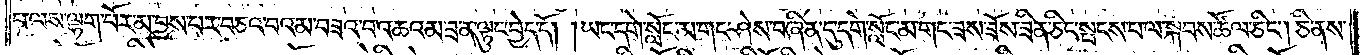པ་ལས་ལྷག་པོར་མ་བྱས་པར་བཅའ་བའམ་བཟའ་བ་འཆའམ་ཟ་ན་ལྟུང་བྱེད་དོ། །ཡང་དགེ་སློང་མ་གང་ཤེས་བཞིན་དུ་དགེ་སློང་མ་གང་ཟས་ཟོས་ཟིན་ཅིང་སྤངས་པ་ལ་སྐབས་ཚོལ་ཅིང༌། ཅི་ནས་
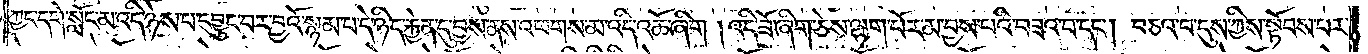ཀྱང་དགེ་སློང་མ་འདི་ཉེས་པ་དབྱུང་བར་བྱའོ་སྙམ་པ་དེ་ཉིད་རྐྱེན་དུ་བྱས་ནས་འཕགས་མ་འདི་འཆོ་ཞིག །འདི་ཟོ་ཞིག་ཅེས་ལྷག་པོར་མ་བྱས་པའི་བཟའ་བ་དང༌། བཅའ་བ་དུས་ཀྱིས་སྟོབས་པར་
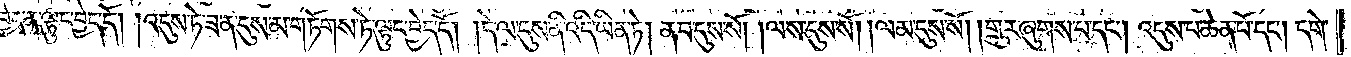བྱེད་ན་ལྟུང་བྱེད་དོ། །འདུས་ཏེ་ཟ་ན་དུས་མ་གཏོགས་ཏེ་ལྟུང་བྱེད་དོ། །དེ་ལ་དུས་ནི་འདི་ཡིན་ཏེ། ན་བ་དུས་སོ། །ལས་དུས་སོ། །ལམ་དུས་སོ། །གྲུར་ཞུགས་པ་དང༌། འདུས་པ་ཆེན་པོ་དང༌། དགེ་
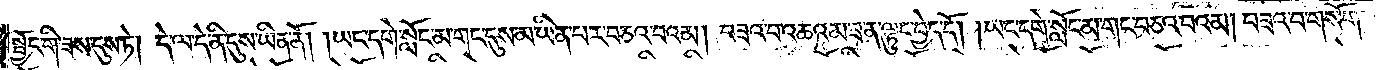སྦྱོང་གི་ཟས་དུས་ཏེ། དེ་ལ་དེ་ནི་དུས་ཡིན་ནོ། །ཡང་དགེ་སློང་མ་གང་དུས་མ་ཡིན་པར་བཅའ་བའམ། བཟའ་བ་འཆའམ་ཟ་ན་ལྟུང་བྱེད་དོ། །ཡང་དགེ་སློང་མ་གང་བཅའ་བའམ། བཟའ་བ་གསོག་
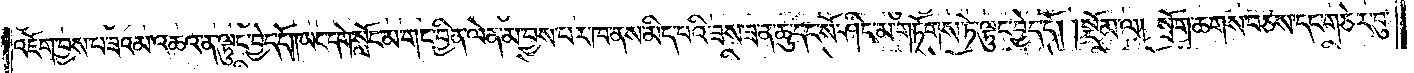འཇོག་བྱས་པ་ཟའམ་འཆའ་ན་ལྟུང་བྱེད་དོ། །ཡང་དགེ་སློང་མ་གང་བྱིན་ལེན་མ་བྱས་པར་ཁ་ནས་མིད་པའི་ཟས་ཟ་ན་ཆུ་དང་སོ་ཤིང་མ་གཏོགས་ཏེ་ལྟུང་བྱེད་དོ།    །སྡོམ་ལ། སྲོག་ཆགས་བཅས་དང་གཅེར་བུ་
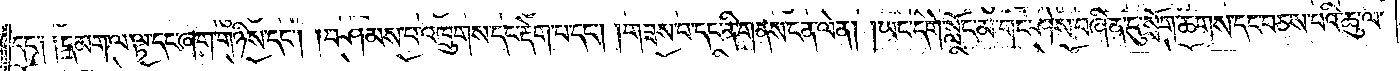དང་༏ ༏དམག་ལ་ལྟ་དང་ཞག་གཉིས་དང༌། །བཤམས་པ་འཁྲུགས་དང་རྡེག་པ་དང༌། གཟས་པ་དང་ནི་གནས་ངན་ལེན། །ཡང་དགེ་སློང་མ་གང་ཤེས་བཞིན་དུ་སྲོག་ཆགས་དང་བཅས་པའི་ཆུ་ལ་
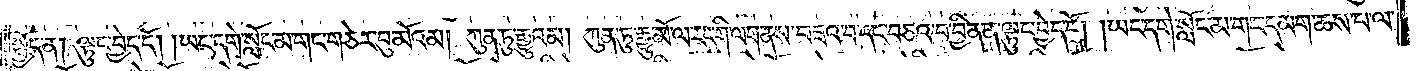སྤྱོད་ན། ལྟུང་བྱེད་དོ། །ཡང་དགེ་སློང་མ་གང་གཅེར་བུ་མོའམ། ཀུན་ཏུ་རྒྱུའམ། ཀུན་ཏུ་རྒྱུ་མོ་ལ་རང་གི་ལག་ནས་བཟའ་བ་དང་བཅའ་བ་བྱིན་ན་ལྟུང་བྱེད་དོ། །ཡང་དགེ་སློང་མ་གང་དམག་ཆས་པ་ལ་
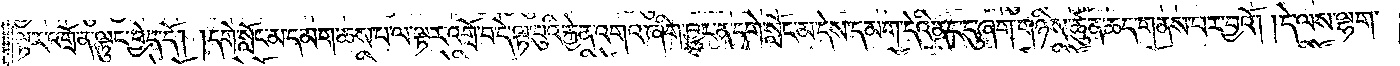ལྟར་འགྲོ་ན་ལྟུང་བྱེད་དོ། །དགེ་སློང་མ་དམག་ཆས་པ་ལ་ལྟར་འགྲོ་བ་དེ་ལྟ་བུའི་རྐྱེན་འགའ་ཞིག་བྱུང་ན་དགེ་སློང་མ་དེས་དམག་དེའི་ནང་དུ་ཞག་གཉིས་ཚུན་ཆད་གནས་པར་བྱའོ། །དེ་ལས་ལྷག་
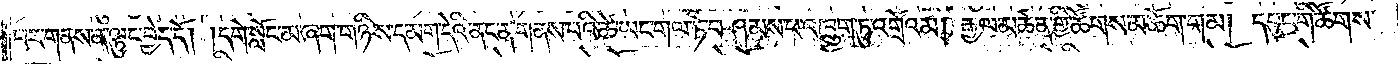པར་གནས་ན་ལྟུང་བྱེད་དོ། །དགེ་སློང་མ་ཞག་གཉིས་དམག་དེའི་ནང་ན་གནས་པའི་ཚེ་ཡང་གལ་ཏེ་བཤམས་པ་འཁྲུག་ཏུ་འགྲོའམ། རྒྱལ་མཚན་གྱི་ཚོགས་མཆོག་གམ། དཔུང་གི་ཚོགས་
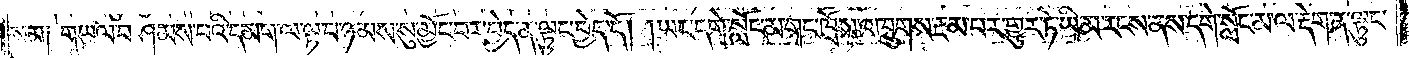སམ། གཡུལ་བཤམས་པའི་དམག་ལ་ལྟ་བ་ཉམས་སུ་མྱོང་བར་བྱེད་ན་ལྟུང་བྱེད་དོ། །ཡང་དགེ་སློང་མ་གང་ཁྲོས་འཁྲུགས་རྔམ་པར་གྱུར་ཏེ་ཡི་མ་རངས་ནས་དགེ་སློང་མ་ལ་རྡེག་ན་ལྟུང་
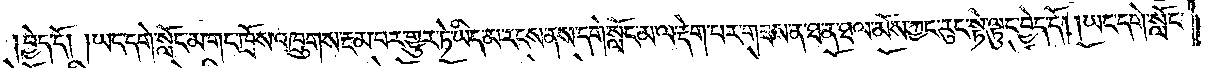བྱེད་དོ། །ཡང་དགེ་སློང་མ་གང་ཁྲོས་འཁྲུགས་རྔམ་པར་གྱུར་ཏེ་ཡིད་མ་རངས་ནས་དགེ་སློང་མ་ལ་རྡེག་པར་གཟས་ན་ཐ་ན་ཐལ་མོས་ཀྱང་རུང་སྟེ་ལྟུང་བྱེད་དོ། །ཡང་དགེ་སློང་
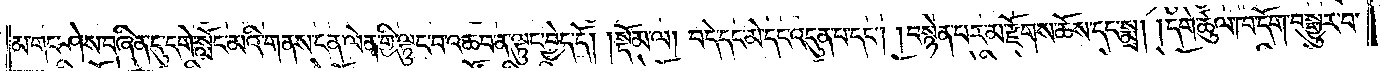མ་གང་ཤེས་བཞིན་དུ་དགེ་སློང་མའི་གནས་ངན་ལེན་གྱི་ལྟུང་བ་འཆབ་ན་ལྟུང་བྱེད་དོ།    །སྡོམ་ལ། བདེ་དང་མེ་དང་འདུན་པ་དང༌། །བསྙེན་པར་མ་རྫོགས་ཆོས་དང་སྨྲ། །དགེ་ཚུལ་ཁ་དོག་བསྒྱུར་བ་
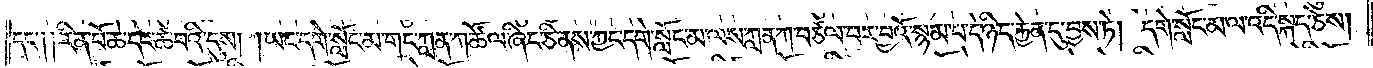དང་༑ ༑རིན་པོ་ཆེ་དང་ཚ་བའི་དུས། །ཡང་དགེ་སློང་མ་གང་ཀླན་ཀ་ཚོལ་ཞིང་ཅི་ནས་ཀྱང་དགེ་སློང་མ་ལས་ཀླན་ཀ་བཙལ་བར་བྱའོ་སྙམ་པ་དེ་ཉིད་རྐྱེན་དུ་བྱས་ཏེ། དགེ་སློང་མ་ལ་འདི་སྐད་ཅེས།
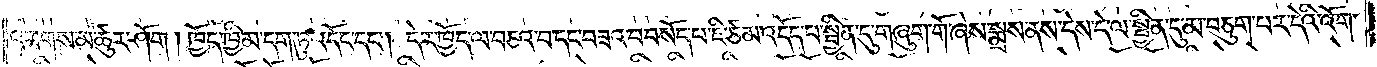འཕགས་མ་ཚུར་ཤོག །ཁྱོད་ཁྱིམ་དག་ཏུ་འདོང་དང༌། དེར་ཁྱོད་ལ་བཅའ་བ་དང་བཟའ་བ་བསོད་པ་ཇི་ཙམ་འདོད་པ་སྦྱིན་དུ་གཞུག་གོ་ཞེས་སྨྲས་ནས་དེས་དེ་ལ་སྦྱིན་དུ་མ་བཅུག་པར་དེའི་འོག་
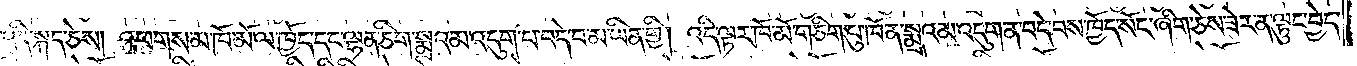འདི་སྐད་ཅེས། འཕགས་མ་ཁོ་མོ་ལ་ཁྱོད་དང་ལྷན་ཅིག་སྨྲའམ་འདུག་པ་བདེ་བ་མ་ཡིན་གྱི། འདི་ལྟར་ཁོ་མོ་གཅིག་པུ་ཁོ་ན་སྨྲའམ་འདུག་ན་བདེ་བས་ཁྱོད་སོང་ཞིག་ཅེས་ཟེར་ན་ལྟུང་བྱེད་
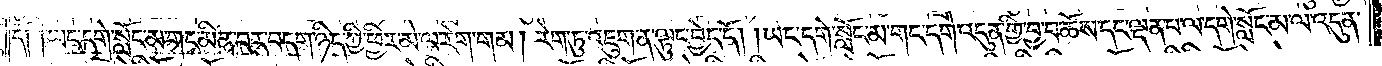དོ༑ ༑ཡང་དགེ་སློང་མ་གང་མིན་པར་བདག་ཉིད་ཀྱི་ཕྱིར་མེ་ལ་རེག་གམ། རེག་ཏུ་འཇུག་ན་ལྟུང་བྱེད་དོ། །ཡང་དགེ་སློང་མ་གང་དགེ་འདུན་གྱི་བྱ་བ་ཆོས་དང་ལྡན་པ་ལ་དགེ་སློང་མ་ལ་འདུན་
